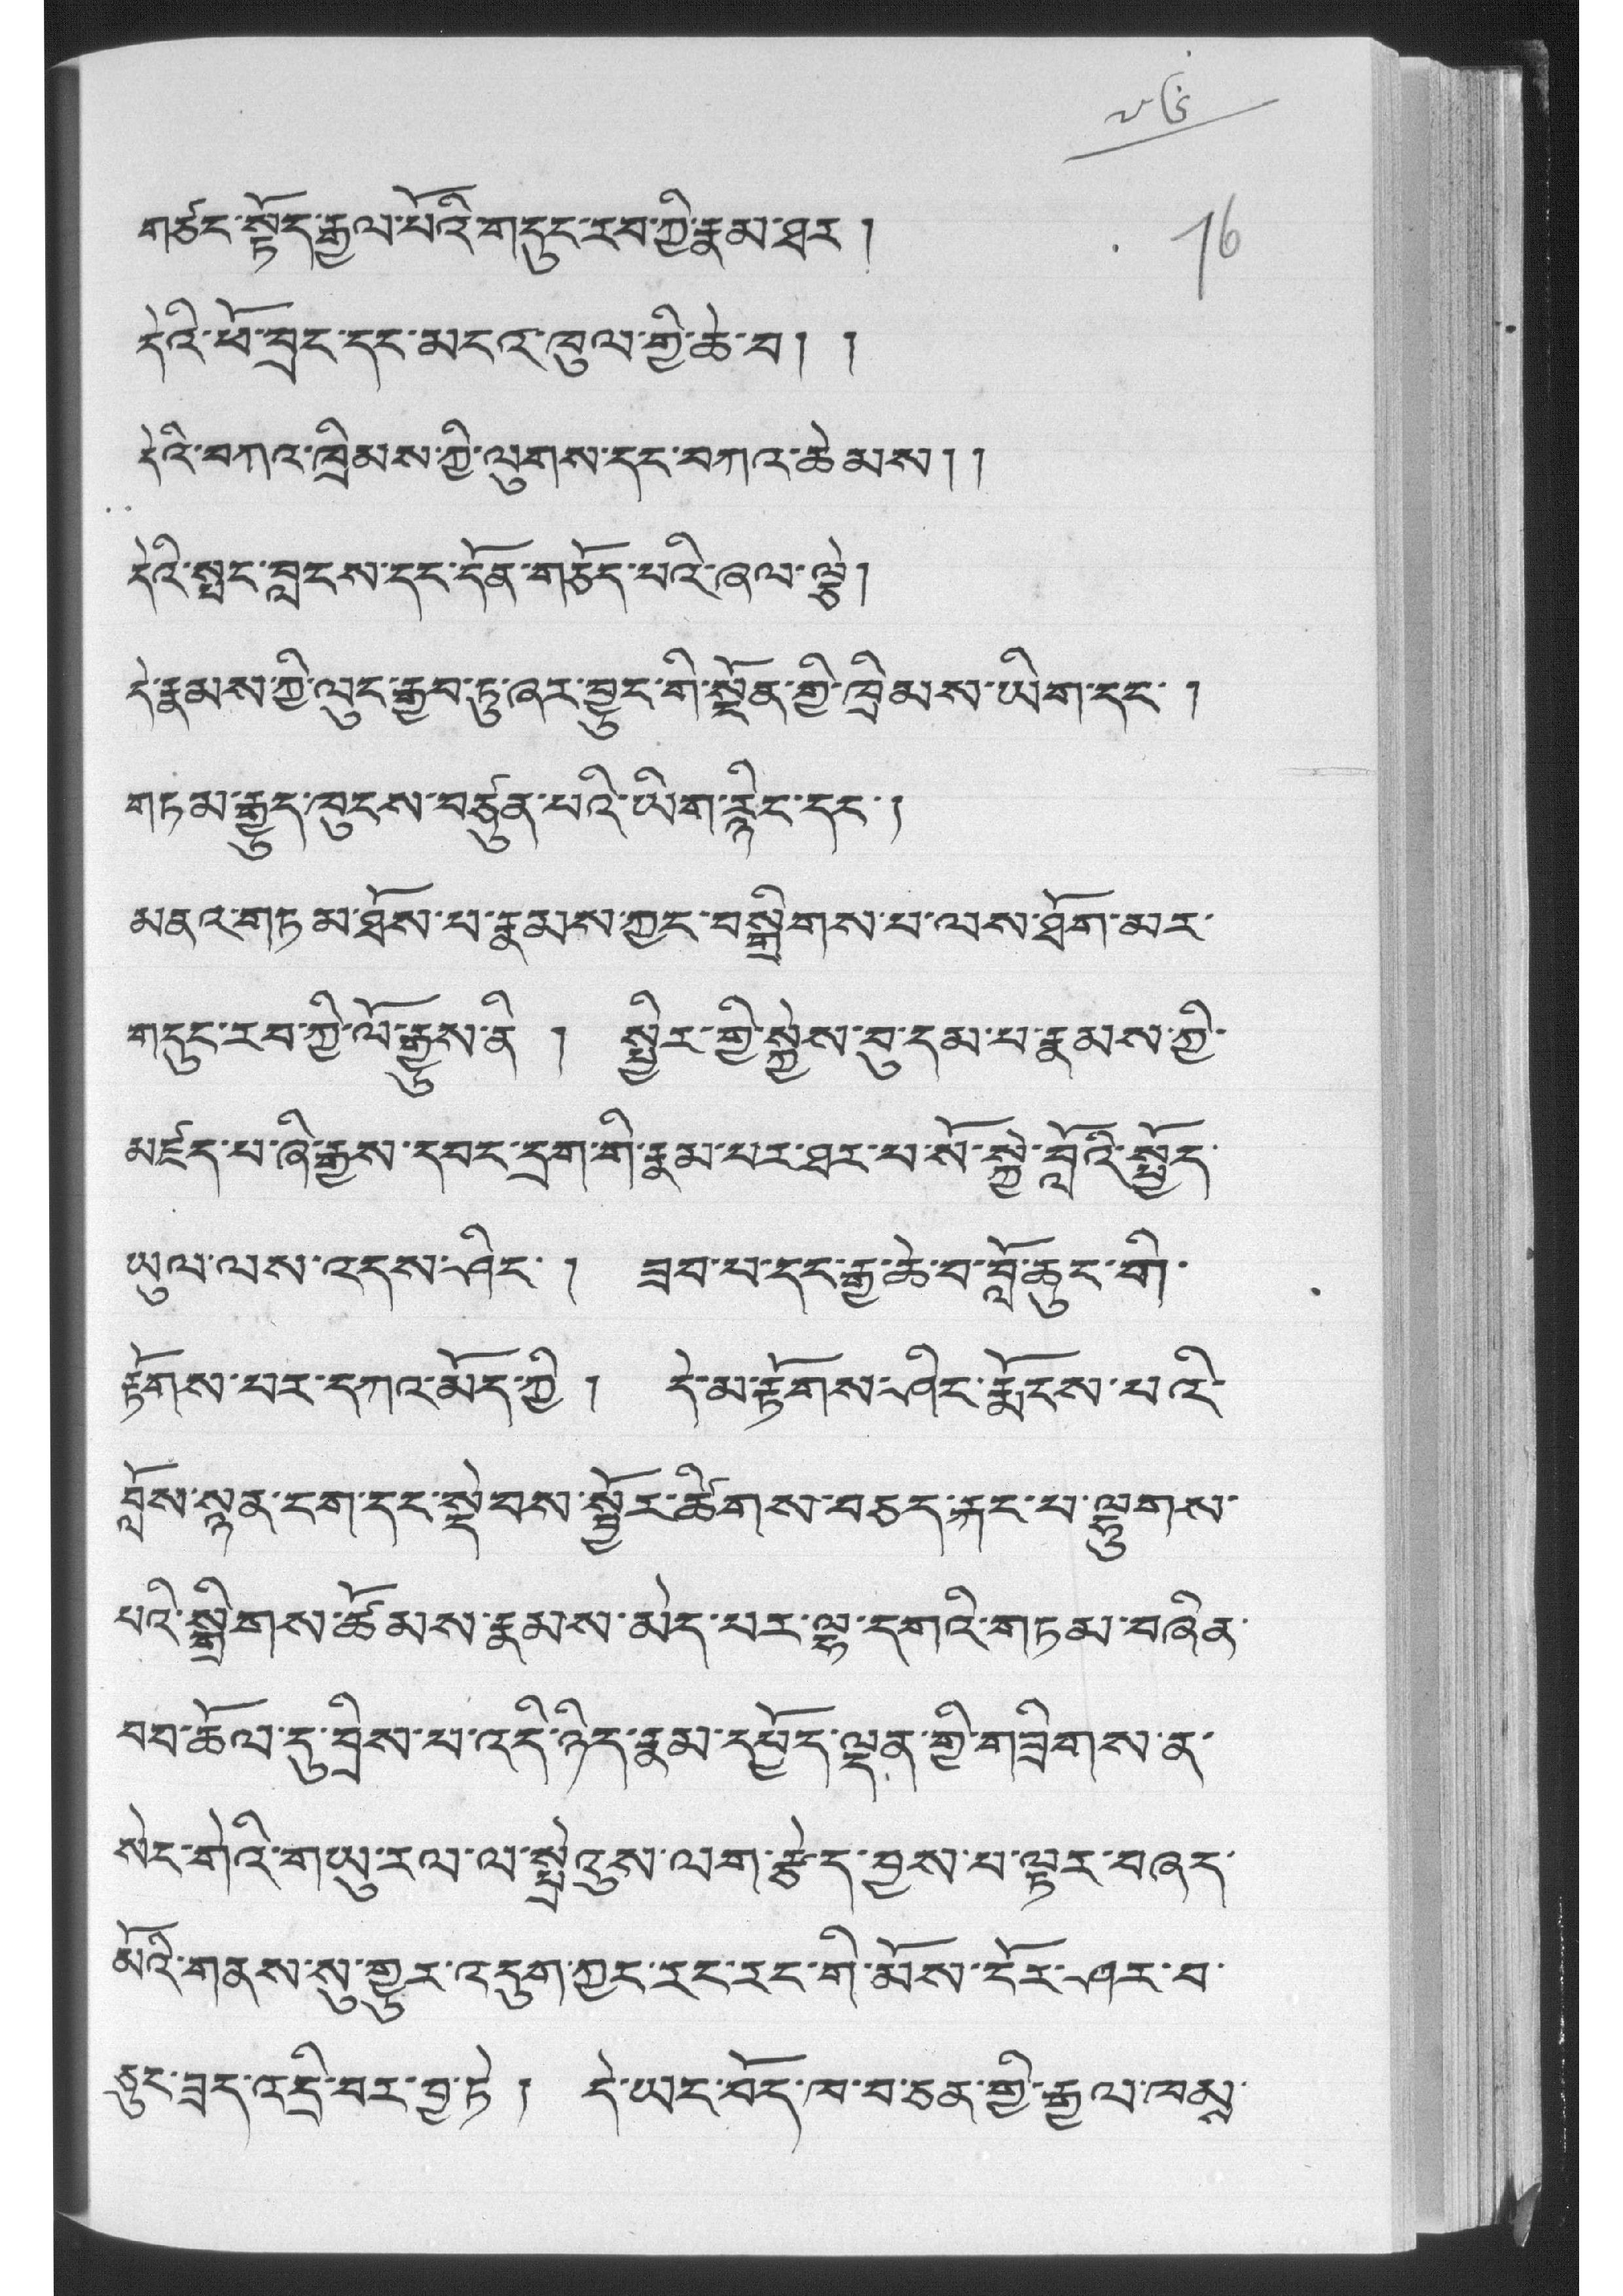༧༦
གཙང་སྟོད་རྒྱལ་པོའི་གདུང་རབ་ཀྱི་རྣམ་ཐར།
དེའི་ཕོ་བྲང་དང་མངའ་ཁུལ་གྱི་ཆེ་བ། །
དེའི་བཀའ་ཁྲིམས་ཀྱི་ལུགས་དང་བཀའ་ཆེམས།།
དེའི་སྤང་བླངས་དང་དོན་གཅོད་པའི་ཞལ་ལྕེ།
དེ་རྣམས་ཀྱི་ལུང་རྒྱབ་ཏུ་ཞར་བྱུང་གི་སྔོན་གྱི་ཁྲིམས་ཡིག་དང་།
གཏམ་རྒྱུད་ཁུངས་བཙུན་པའི་ཡིག་རྙིང་དང་།
མནའ་གཏམ་ཐོས་པ་རྣམས་ཀྱང་བསྒྲིགས་པ་ལས་ཐོག་མར་
གདུང་རབ་ཀྱི་ལོ་རྒྱུས་ནི ། སྤྱིར་གྱི་སྐྱེས་བུ་དམ་པ་རྣམས་ཀྱི་
མཛད་པ་ཞི་རྒྱས་དབང་དྲག་གི་རྣམ་པར་ཐར་པ་སོ་སྐྱེ་བློའི་སྤྱོད་
ཡུལ་ལས་འདས་ཤིང་། ཟབ་པ་དང་རྒྱ་ཆེ་བ་བློ་ཆུང་གི་
རྟོགས་པར་དཀའ་མོད་ཀྱི། དེ་མ་རྟོགས་ཤིང་རྨོངས་པའི་
བློས་སྙན་ངག་དང་སྡེབས་སྦྱོར་ཚིགས་བཅད་རྐང་པ་ལྷུགས་
པའི་སྒྲིགས་ཚོམས་རྣམས་མེད་པར་ལྷ་དགའི་གཏམ་བཞིན་
བབ་ཆོལ་དུ་བྲིས་པ་འདི་ཉིད་རྣམ་དཔྱོད་ལྡན་གྱི་གཟིགས་ན་
སེང་གེའི་གཡུ་རལ་ལ་སྤྲེའུས་ལག་རྩེད་བྱས་པ་ལྟར་བཞད་
མོའི་གནས་སུ་གྱུར་འདུག་ཀྱང་རང་རང་གི་མོས་ངོར་ཤར་བ་
ཅུང་ཟད་འདྲི་བར་བྱ་ཏེ ། དེ་ཡང་བོད་ཁ་བ་ཅན་གྱི་རྒྱལ་ཁམས་
